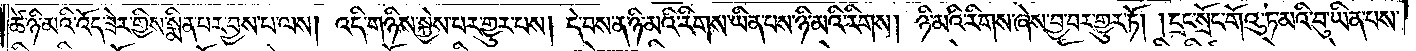ཚེ་ཉི་མའི་འོད་ཟེར་གྱིས་སྨིན་པར་བྱས་པ་ལས། འདི་གཉིས་སྐྱེས་པར་གྱུར་པས། དེ་བས་ན་ཉི་མའི་རིགས་ཡིན་པས་ཉི་མའི་རིགས། ཉི་མའི་རིགས་ཞེས་བྱ་བར་གྱུར་ཏོ། །དྲང་སྲོང་གོའུ་ཏ་མའི་བུ་ཡིན་པས་
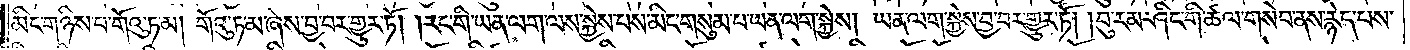མིང་གཉིས་པ་གོའུ་ཏ་མ། གོའུ་ཏ་མ་ཞེས་བྱ་བར་གྱུར་ཏོ། །རང་གི་ཡན་ལག་ལས་སྐྱེས་པས་མིང་གསུམ་པ་ཡན་ལག་སྐྱེས། ཡན་ལག་སྐྱེས་བྱ་བར་གྱུར་ཏོ། །བུ་རམ་ཤིང་གི་ཚལ་གསེབ་ནས་རྙེད་པས་
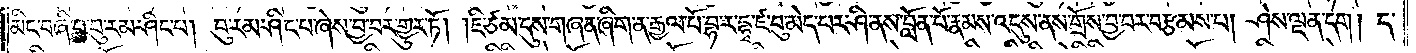མིང་བཞི་པ་བུ་རམ་ཤིང་པ། བུ་རམ་ཤིང་པ་ཞེས་བྱ་བར་གྱུར་ཏོ། །ཇི་ཙམ་དུས་གཞན་ཞིག་ན་རྒྱལ་པོ་བྷ་ར་དྷྭ་ཛ་བུ་མེད་པར་ཤི་ནས་བློན་པོ་རྣམས་འདུས་ནས་གྲོས་བྱ་བར་བརྩམས་པ། ཤེས་ལྡན་དག །ད་
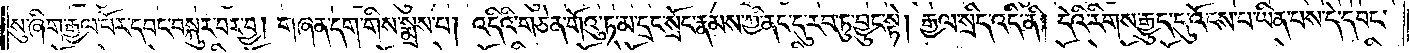སུ་ཞིག་རྒྱལ་པོར་དབང་བསྐུར་བར་བྱ། གཞན་དག་གིས་སྨྲས་པ། འདིའི་གཅེན་གོའུ་ཏ་མ་དྲང་སྲོང་རྣམས་ཀྱི་ནང་དུ་རབ་ཏུ་བྱུང་སྟེ། རྒྱལ་སྲིད་འདི་ནི། དེའི་རིགས་རྒྱུད་དུ་འོངས་པ་ཡིན་པས་དེ་དབང་
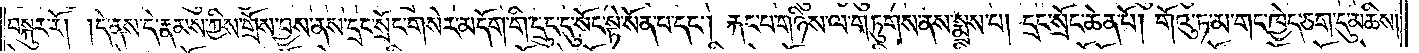བསྐུར་རོ། །དེ་ནས་དེ་རྣམས་ཀྱིས་གྲོས་བྱས་ནས་དྲང་སྲོང་གསེར་མདོག་གི་དྲུང་དུ་སོང་སྟེ་སོན་པ་དང༌། རྐང་པ་གཉིས་ལ་གཏུགས་ནས་སྨྲས་པ། དྲང་སྲོང་ཆེན་པོ། གོའུ་ཏ་མ་གང་ཁྱེད་ཅག་དུ་མཆིས།
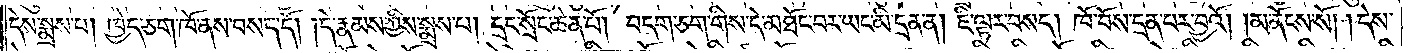དེས་སྨྲས་པ། ཁྱེད་ཅག་ཁོ་ནས་བསད་དོ། །དེ་རྣམས་ཀྱིས་སྨྲས་པ། དྲང་སྲོང་ཆེན་པོ། བདག་ཅག་གིས་དེ་མཐོང་བར་ཡང་མི་དྲན་ན། ཇི་ལྟར་བསད། ཁོ་བོས་དྲན་པར་བྱའོ། །མ་ནོངས་སོ། །དེས་
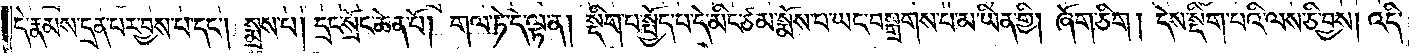དེ་རྣམས་དྲན་པར་བྱས་པ་དང༌། སྨྲས་པ། དྲང་སྲོང་ཆེན་པོ། གལ་ཏེ་དེ་ལྟ་ན། སྡིག་པ་སྤྱོད་པ་དེ་མིང་ཙམ་སྨོས་པ་ཡང་བསྒྲགས་པ་མ་ཡིན་གྱི། ཞོག་ཅིག །དེས་སྡིག་པའི་ལས་ཅི་བྱས། འདི་
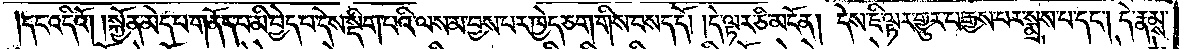།དང་འདིའོ། །སྐྱོན་མེད་པ་གནོད་པ་མི་བྱེད་པ་དེས་སྡིག་པའི་ལས་མ་བྱས་པར་ཁྱེད་ཅག་གིས་བསད་དོ། །དེ་ལྟར་ཅི་མངོན། དེས་ཇི་ལྟར་གྱུར་པ་རྒྱས་པར་སྨྲས་པ་དང༌། དེ་རྣམས་
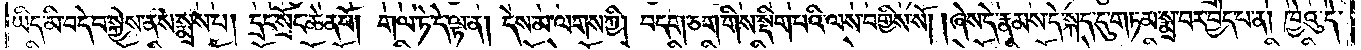ཡིད་མི་བདེ་བ་སྐྱེས་ནས་སྨྲས་པ། དྲང་སྲོང་ཆེན་པོ། གལ་ཏེ་དེ་ལྟ་ན། དེས་མ་ལགས་ཀྱི། བདག་ཅག་གིས་སྡིག་པའི་ལས་བགྱིས་སོ། །ཞེས་དེ་རྣམས་དེ་སྐད་དུ་གཏམ་སྨྲ་བར་བྱེད་པ་ན། ཁྱེའུ་དེ་
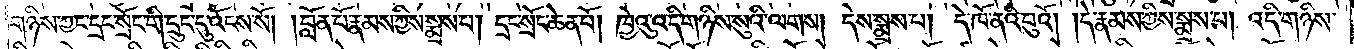གཉིས་ཀྱང་དྲང་སྲོང་གི་དྲུང་དུ་འོངས་སོ། །བློན་པོ་རྣམས་ཀྱིས་སྨྲས་པ། དྲང་སྲོང་ཆེན་པོ། ཁྱེའུ་འདི་གཉིས་སུའི་ལགས། དེས་སྨྲས་པ། དེ་ཁོ་ནའི་བུའོ། །དེ་རྣམས་ཀྱིས་སྨྲས་པ། འདི་གཉིས་
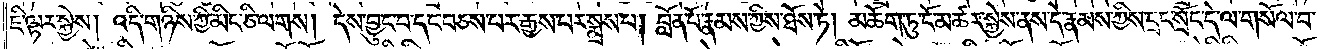ཇི་ལྟར་སྐྱེས། འདི་གཉིས་ཀྱི་མིང་ཅི་ལགས། དེས་བྱུང་བ་དང་བཅས་པར་རྒྱས་པར་སྨྲས་པ། བློན་པོ་རྣམས་ཀྱིས་ཐོས་ཏེ། མཆོག་ཏུ་ངོ་མཚར་སྐྱེས་ནས་དེ་རྣམས་ཀྱིས་དྲང་སྲོང་དེ་ལ་གསོལ་བ་
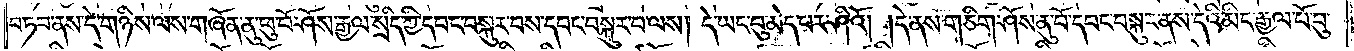བཏབ་ནས་དེ་གཉིས་ལས་གཞོན་ནུ་ཕུ་བོ་ཤོས་རྒྱལ་སྲིད་ཀྱི་དབང་བསྐུར་བས་དབང་བསྐུར་བ་ལས། དེ་ཡང་བུ་མེད་པར་ཤིའོ། །དེ་ནས་གཅིག་ཤོས་ནུ་བོ་དབང་བསྐུར་ནས་དེའི་མིང་རྒྱལ་པོ་བུ་
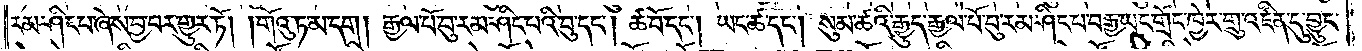རམ་ཤིང་པ་ཞེས་བྱ་བར་གྱུར་ཏོ། །གོའུ་ཏ་མ་དག །རྒྱལ་པོ་བུ་རམ་ཤིང་པའི་བུ་དང༌། ཚ་བོ་དང༌། ཡང་ཚ་དང༌། སུམ་ཚའི་རྒྱུད་རྒྱལ་པོ་བུ་རམ་ཤིང་པ་བརྒྱ་ཡང་གྲོང་ཁྱེར་གྲུ་འཛིན་དུ་བྱུང་
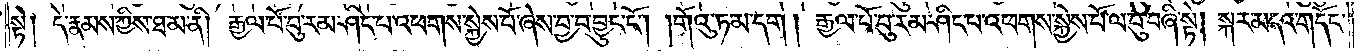སྟེ། དེ་རྣམས་ཀྱིས་ཐ་མ་ནི། རྒྱལ་པོ་བུ་རམ་ཤིང་པ་འཕགས་སྐྱེས་པོ་ཞེས་བྱ་བ་བྱུང་ངོ༌། །གོའུ་ཏ་མ་དག །རྒྱལ་པོ་བུ་རམ་ཤིང་པ་འཕགས་སྐྱེས་པོ་ལ་བུ་བཞི་སྟེ། སྐར་མདའ་གདོང་
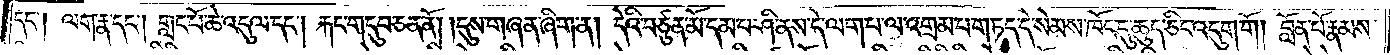དང༌། ལག་རྣ་དང༌། གླང་པོ་ཆེ་འདུལ་དང༌། རྐང་གདུབ་ཅན་ནོ། །དུས་གཞན་ཞིག་ན། དེའི་བཙུན་མོ་དམ་པ་ཤི་ནས་དེ་ལག་པ་ལ་འགྲམ་པ་གཏད་དེ་སེམས་ཁོང་དུ་ཆུད་ཅིང་འདུག་གོ །བློན་པོ་རྣམས་
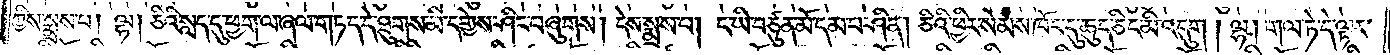ཀྱིས་སྨྲས་པ། ལྷ། ཅིའི་སླད་དུ་ཕྱག་ལ་ཞལ་གཏད་དེ་ཐུགས་མི་དགྱེས་ཤིང་བཞུགས། དེས་སྨྲས་པ། ང་ཡི་བཙུན་མོ་དམ་པ་ཤི་ན། ཅིའི་ཕྱིར་སེམས་ཁོང་དུ་ཆུད་ཅིང་མི་འདུག །ལྷ། གལ་ཏེ་དེ་ལྟར་
